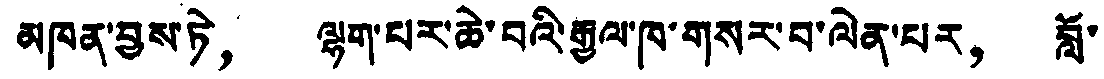མཁན་བྱས་ཏེ， ལྷག་པར་ཆེ་བའི་རྒྱལ་ཁ་གསར་བ་ལེན་པར， བློ་
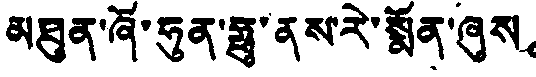མཐུན་ཞོ་ཧུན་ཧྥུ་ནས་རེ་སྨོན་ཞུས。
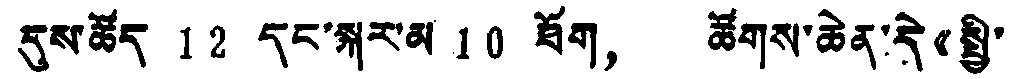དུས་ཚོད 12 དང་སྐར་མ 10 ཐོག， ཚོགས་ཆེན་དེ《སྤྱི་
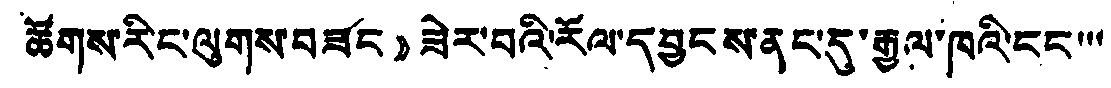ཚོགས་རིང་ལུགས་བཟད》ཟེར་བའི་རོལ་དབྱངས་ནང་དུ་རྒྱལ་ཁའི་ངང་་་
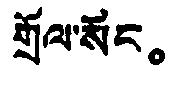གྲོལ་སོང。
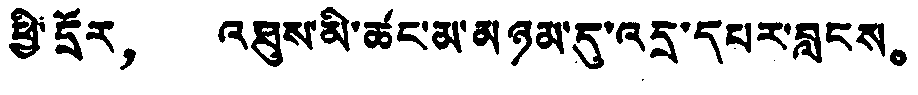ཕྱི་དྲོར， འཐུས་མི་ཚང་མ་མཉམ་དུ་འདྲ་དཔར་བླངས。
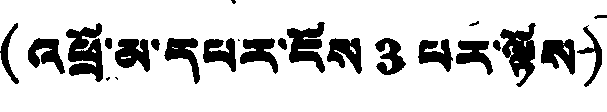(འཕྲོ་མ་དཔར་ངོས 3 པར་ལྟོས)
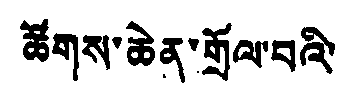ཚོགས་ཆེན་གྲོལ་བའི་
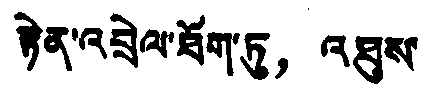རྟེན་འབྲེལ་ཐོག་ཏུ， འཐུས་
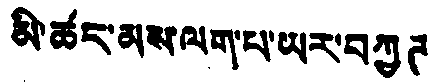མི་ཚང་མས་ལག་པ་ཡར་བཀུཊ
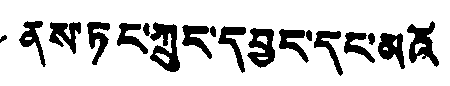ནས་ཏང་ཀྲུང་དབྱང་དང་མའོ
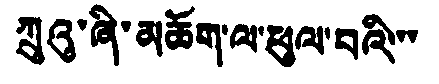ཀྲུའུ་ཞི་མཆོག་ལ་ཕུལ་བའི་་་
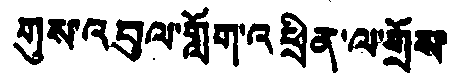གུས་འབུལ་གློག་འཕྲིན་ལ་གྲོས
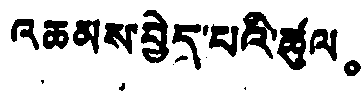འཆམས་བྱེད་པའི་ཚུལ。
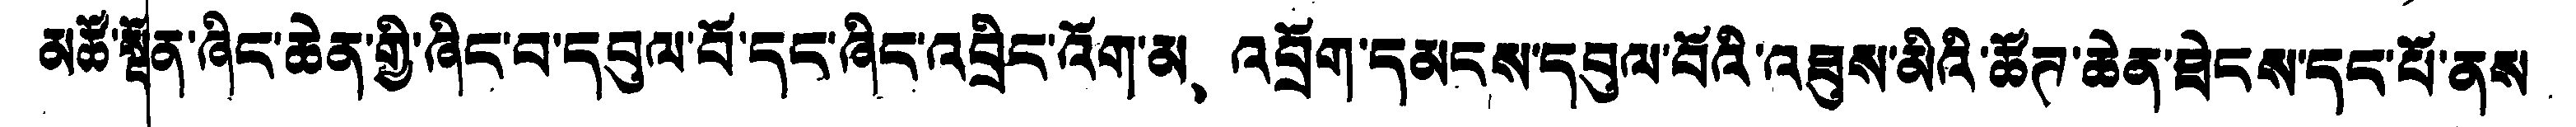མཚོ་སྔོན་ཞིང་ཆེན་གྱི་ཞིང་བ་དབུལ་བོ་དང་ཞིང་འབྲིང་འོག་མ、 འབྲོག་དམངས་དབུལ་བོའི་འཐུས་མིའི་ཚོཊ་ཆེན་ཐེངས་དང་པོ་ནས
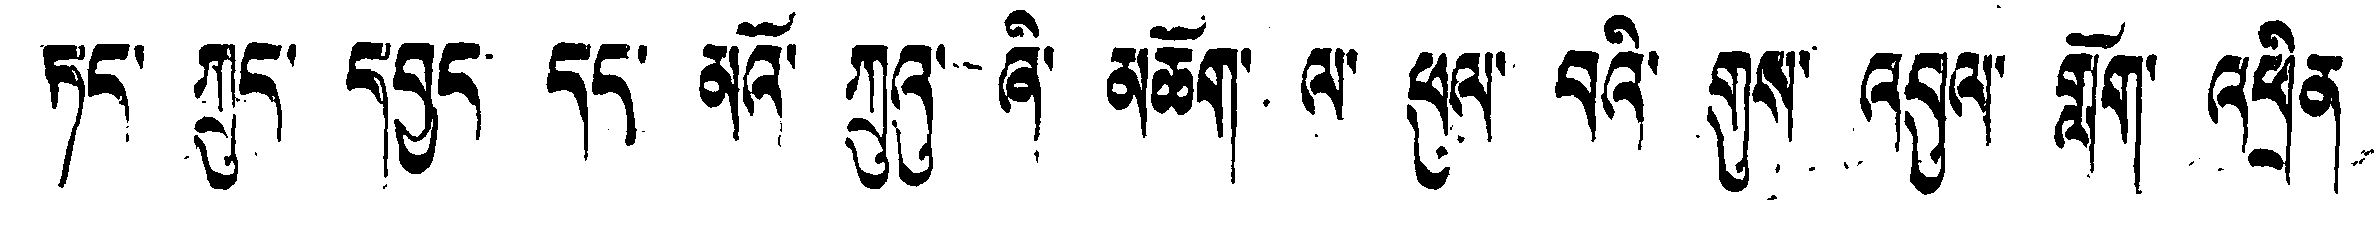ཏང་ ཀྲུང་ དབྱང་ དང་ མའོ་ ཀྲུའུ་ ཞི་ མཆོག་ ལ་ ཕུལ་ བའི་ གུས་ འབུལ་ གློག་ འཕྲིན
